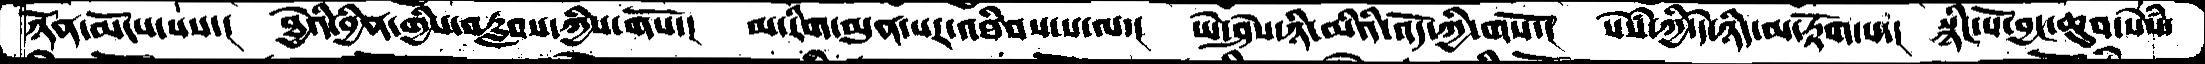ཉོན་མོངས་པས་།  ཐྱེའི་བྱིན་གྱིས་བརླབས་ཀྱིས་གསོ་།  མ་རིག་མུན་པར་འཐིབས་པ་ལ་།  ཡེ་ཤེས་ཉི་མིའི་འོད་ཀྱི་གསོ་།  སེཾས་ཀྱི་དེ་ཉིད་མ་རྟོག་པ་།  སྙིང་པོ་བྱང་ཆུབ་སེཾས་
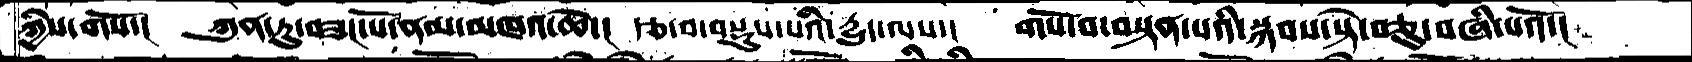ཀྱིས་གསོ་།  ཀུན་ཏུ་བཟང་པོ་ནམ་མཁའ་ཆེ་།  རྩ་བ་བསྡུས་པའི་དྱུད་ལས་།  གསོ་བ་བསྟན་པའི་སྐབས་སྟེ་བཅུ་བཞི་པའོ་།
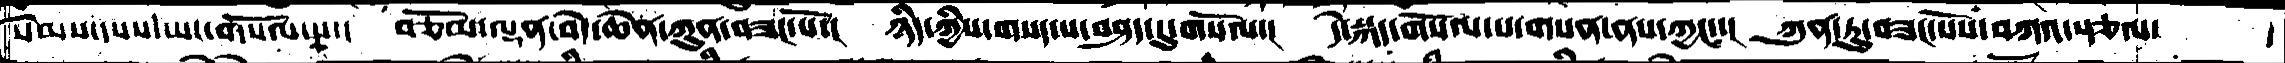སེམས་དཔས་ཡང་གསོལ་པ་།  བཅོམ་ལྡན་བདེ་ཆེན་ཀུན་བཟང་པོ་།  ཉིད་ཀྱི་གསད་པ་བཤད་དུ་གསོལ་།  དེ་སྐད་གསོལ་པ་གསན་ནས་ཀྱང་་།  ཀུན་ཏུ་བཟང་པོས་བཀའ་སྩལ་   །
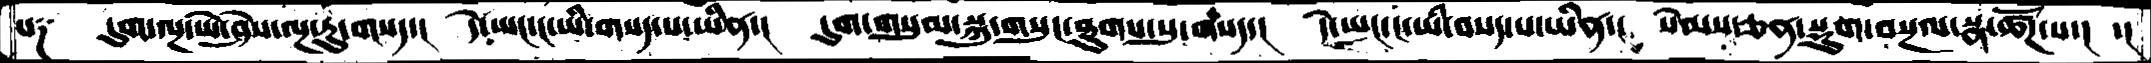པ༑  དུག་ལྔ་ཡེ་ཤེས་ལྔ་རུ་གསད་།  དེ་ཡང་ང་ཡི་གསད་པ་ཡིན་།  དུག་གསུམ་སྐུ་གསུང་ཐུགས་སུ་གསད་།  དེ་ཡང་ང་ཡི་བསད་པ་ཡིན་།  སེམས་ཅན་སྡུག་བསྔལ་སྣ་ཚོཌ་པ་།  ་།
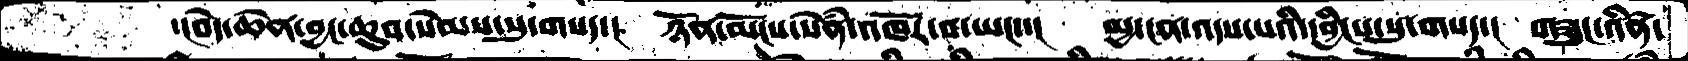་།བདེ་ཆེན་བྱང་ཆུབ་སེམས་སུ་གསད་།  ཉོན་མོངས་སེཾན་འཁོར་བ་ཡང་་།  མྱ་ངན་འདས་པའི་དབྱིངས་སུ་གསད་།  གཟུང་འཛིན་
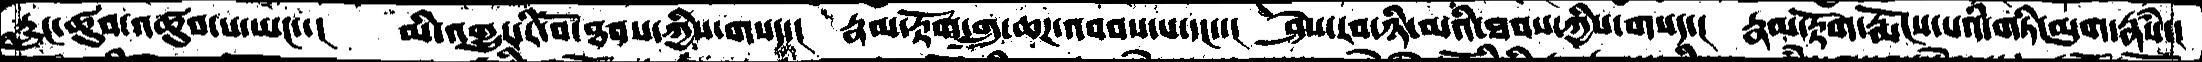རླུང་ཚུབ་འཚུབ་པ་ཡང་་།  མི་འགྱུར་རི་བོ་ཐབས་ཀྱིས་གསད་།  རྣམ་རྟོག་གྲུ་ཆཌ་འབབས་པ་དང་་།  ཤེས་རབ་ཉི་མའི་ཐབས་ཀྱིས་གསད་།  རྣམ་རྟོག་རྨོངས་པའི་གཏི་མུག་རྣཾས་།
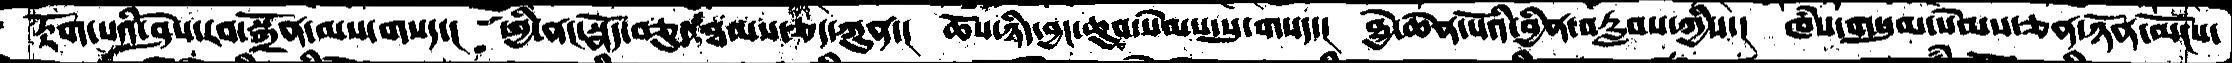རྟོག་པའི་ཤེས་རབ་སྒྲོན་མས་གསད་།  ཕྱི་ནང་སྣོད་བཅུད་ཐམས་ཅད་ཀུན་།  ཆོས་ཉིད་བྱང་ཆུབ་སེམས་སུ་གསད་།  ཐྱེ་ཆེན་པོའི་བྱིན་རླབས་ཀྱིས་།  ཁཾས་གསུམ་སེམས་ཅན་ཉོན་མོངས་
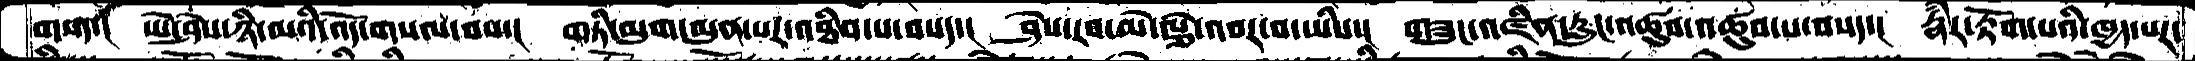གསད་།  ཡེ་ཤེས་ཉི་མའི་འོད་གསལ་བས་།  གཏི་མུག་མུན་པར་འཐིབ་པ་བསད་།  ཤེས་རབ་མེ་ལྕེ་འབར་བ་ཡིས་།  གཟུང་འཛིན་རླུང་འཚུབ་འཚུབ་པ་བསད་།  རྙཾར་རྟོག་པའི་ཁྱད་པར་
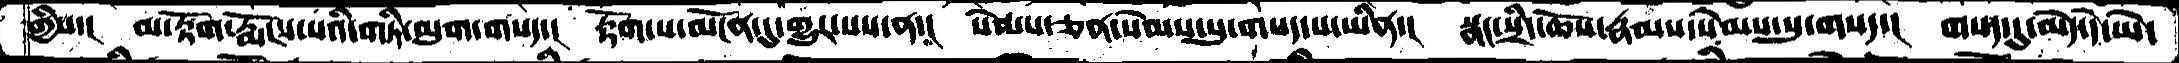གྱིས་།  མ་རྟོག་རྨོངས་པའི་གཏི་མུག་གསད་།  རྟོག་པ་མངོན་དུ་གྱུར་པས་ན་།  སེམས་ཅན་སེམས་སུ་གསད་པ་ཡིན་།  སྣང་སྲིད་ཆོས་རྣམས་སེམས་སུ་གསད་།  གསད་དུ་མེད་དེ་ཡེ་
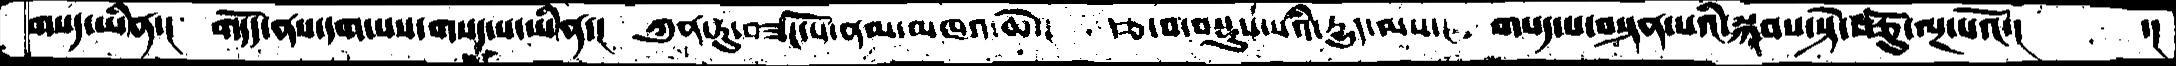གསད་ཡིན་།  གདོད་ནས་དག་པས་གསད་པ་ཡིན་།  ཀུན་ཏུ་བཟང་པོ་ནམ་མཁའ་ཆེ་།  རྩ་བ་བསྡུས་པའི་རྒྱུད་ལས་།  གསད་པ་བསྟན་པའི་སྐབས་སྟེ་བཅོུ་ལྔ་པའོ་།   ་།
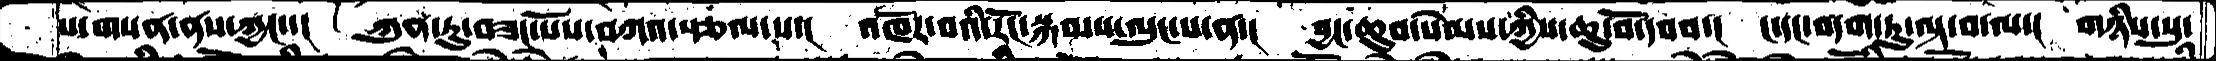པ་གསན་ནས་ཀྱང་་།  ཀུན་ཏུ་བཟང་པོས་བཀའ་སྩལ་པ་།  འཁོར་བའི་རོང་སྐམས་ལུང་པ་ན་།  བྱང་ཆུབ་སེམས་ཀྱིས་ཆུ་བོ་དབབ་།  ང་དང་བདག་ཏུ་ལྟ་བ་ལ་།  གཉིས་སུ་
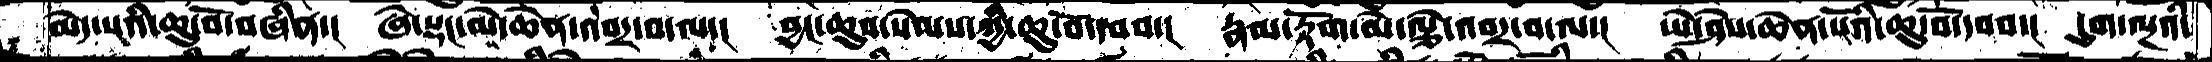མེད་པའི་ཆུ་བོ་བཞིན་།  ཞེ་སྡང་མེ་ཆེན་འབར་བ་ལ་།  བྱང་ཆུབ་སེམས་ཀྱི་ཆུ་བོ་དབབ་།  རྣམ་རྟོག་མེ་ལྕེ་འབར་བ་ལ་།  ཡེ་ཤེས་ཆེན་པོའི་ཆུ་བོ་དབབ་།  དུག་ལྔའི་
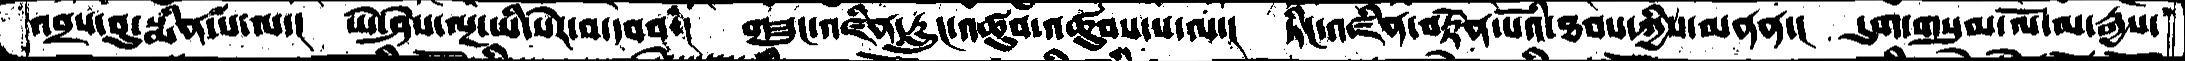འབྲས་བུ་སྨིན་པ་ལ་།  ཡེ་ཤེས་ལྔ་ཡི་སེར་བ་དབབ་།  གཟུང་འཛིན་རླུང་འཚུབ་འཚུབ་པ་ལ་།  ཏིང་འཛིན་བརྟེན་པོའི་ཐབས་ཀྱིས་མནན་།  དུག་གསུམ་ལོ་མ་རྒྱས་
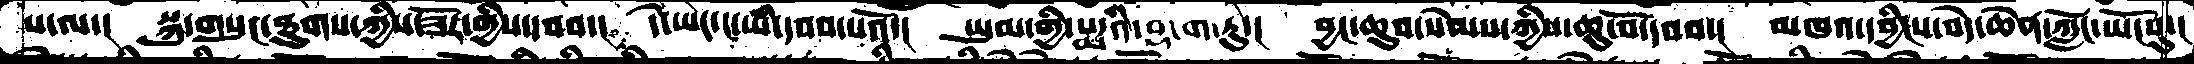པ་ལ་།  སྐུ་གསུང་ཐུགས་ཀྱིས་ཟོར་གྱིས་དབབ་།  དེ་ཡང་ང་ཡི་དབབ་པའོ་།  ཡུམ་གྱི་པདྨའི་བྷ་ག་རུ་།  བྱང་ཆུབ་སེམས་ཀྱིས་ཆུ་བོ་དབབ་།  མཁའ་དབྱིངས་བདེ་ཆེན་ཀློང་ཡོངསུ་།
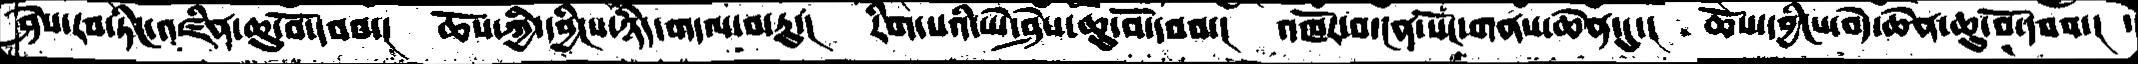ཤེས་རབ་ཏིང་འཛིན་ཆུ་བོ་དབབ་།  ཆོས་ཀྱི་དབྱིངད་ཉིད་གདལ་བ་རུ་།  རིག་པའི་ཡེ་ཤེས་ཆུ་བོ་དབབ་།  འཁོར་བ་ངན་སོང་གནས་ཆེན་དུ་།  ཆོས་དབྱིངས་བདེ་ཆེན་ཆུ་བོ་དབབ་།  ་
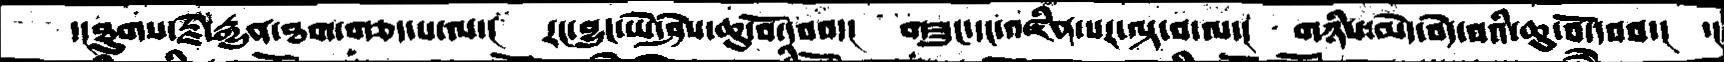་།ཐུགས་རྗེ་རྒྱུན་ཐག་གཅད་པ་ལ་།  རང་བྱུང་ཡེ་ཤེས་ཆུ་བོ་དབབ་།  གཟུང་དང་འཛིན་པར་ལྟ་བ་ལ་།  གཉིས་མེད་བདེ་བའི་ཆུ་བོ་དབབ་།  ་།
